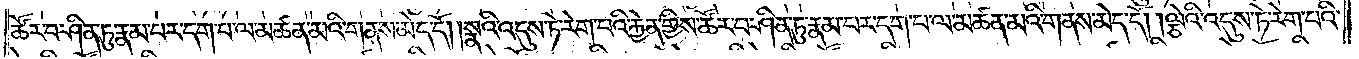ཚོར་བ་ཤིན་ཏུ་རྣམ་པར་དག་པ་ལ་མཚན་མའི་གནས་མེད་དོ། །སྣའི་འདུས་ཏེ་རེག་པའི་རྐྱེན་གྱིས་ཚོར་བ་ཤིན་ཏུ་རྣམ་པར་དག་པ་ལ་མཚན་མའི་གནས་མེད་དོ། །ལྕེའི་འདུས་ཏེ་རེག་པའི་
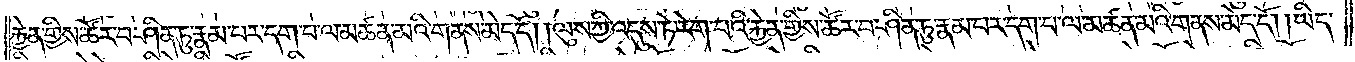རྐྱེན་གྱིས་ཚོར་བ་ཤིན་ཏུ་རྣམ་པར་དག་པ་ལ་མཚན་མའི་གནས་མེད་དོ། །ལུས་ཀྱི་འདུས་ཏེ་རེག་པའི་རྐྱེན་གྱིས་ཚོར་བ་ཤིན་ཏུ་རྣམ་པར་དག་པ་ལ་མཚན་མའི་གནས་མེད་དོ། །ཡིད་
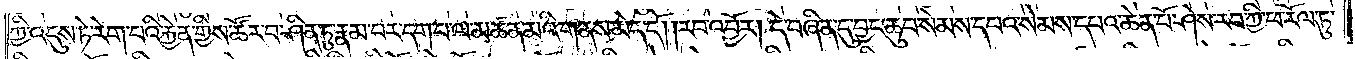ཀྱི་འདུས་ཏེ་རེག་པའི་རྐྱེན་གྱིས་ཚོར་བ་ཤིན་ཏུ་རྣམ་པར་དག་པ་ལ་མཚན་མའི་གནས་མེད་དོ། །རབ་འབྱོར། དེ་བཞིན་དུ་བྱང་ཆུབ་སེམས་དཔའ་སེམས་དཔའ་ཆེན་པོ་ཤེས་རབ་ཀྱི་ཕ་རོལ་ཏུ་
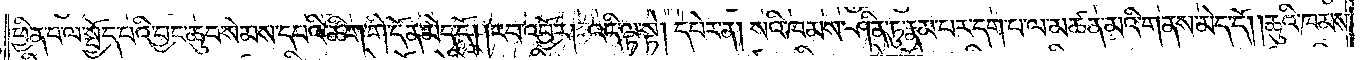ཕྱིན་པ་ལ་སྤྱོད་པའི་བྱང་ཆུབ་སེམས་དཔའི་ཚིག་གི་དོན་མེད་དོ། །རབ་འབྱོར། འདི་ལྟ་སྟེ། དཔེར་ན། སའི་ཁམས་ཤིན་ཏུ་རྣམ་པར་དག་པ་ལ་མཚན་མའི་གནས་མེད་དོ། །ཆུའི་ཁམས་
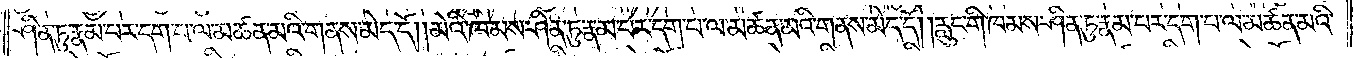ཤིན་ཏུ་རྣམ་པར་དག་པ་ལ་མཚན་མའི་གནས་མེད་དོ། །མེའི་ཁམས་ཤིན་ཏུ་རྣམ་པར་དག་པ་ལ་མཚན་མའི་གནས་མེད་དོ། །རླུང་གི་ཁམས་ཤིན་ཏུ་རྣམ་པར་དག་པ་ལ་མཚན་མའི་
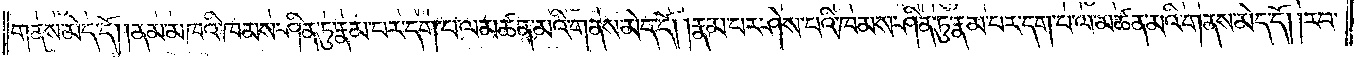གནས་མེད་དོ། །ནམ་མཁའི་ཁམས་ཤིན་ཏུ་རྣམ་པར་དག་པ་ལ་མཚན་མའི་གནས་མེད་དོ། །རྣམ་པར་ཤེས་པའི་ཁམས་ཤིན་ཏུ་རྣམ་པར་དག་པ་ལ་མཚན་མའི་གནས་མེད་དོ། །རབ་
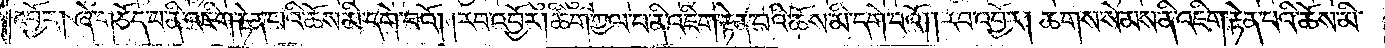འབྱོར། ཞེ་གཅོད་པ་ནི་འཇིག་རྟེན་པའི་ཆོས་མི་དགེ་བའོ། །རབ་འབྱོར། ཚིག་ཀྱལ་པ་ནི་འཇིག་རྟེན་པའི་ཆོས་མི་དགེ་པའོ། །རབ་འབྱོར། ཆགས་སེམས་ནི་འཇིག་རྟེན་པའི་ཆོས་མི་
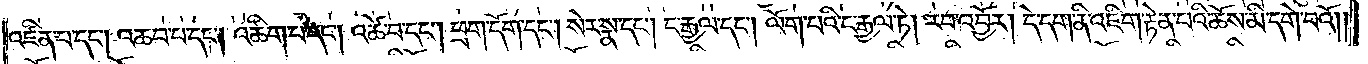འཛིན་པ་དང༌། འཆབ་པ་དང༌། འཚིག་པ་དང༌། འཚེ་བ་དང༌། ཕྲག་དོག་དང༌། སེར་སྣ་དང༌། ང་རྒྱལ་དང༌། ལོག་པའི་ང་རྒྱལ་ཏེ། རབ་འབྱོར། དེ་དག་ནི་འཇིག་རྟེན་པའི་ཆོས་མི་དགེ་བའོ། །
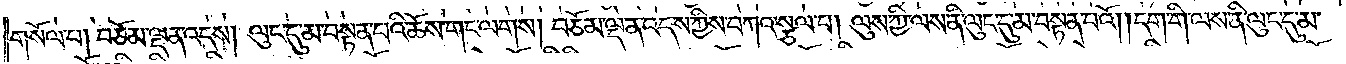གསོལ་པ། བཅོམ་ལྡན་འདས། ལུང་དུ་མ་བསྟན་པའི་ཆོས་གང་ལགས། བཅོམ་ལྡན་འདས་ཀྱིས་བཀའ་སྩལ་པ། ལུས་ཀྱི་ལས་ནི་ལུང་དུ་མ་བསྟན་པའོ། །ངག་གི་ལས་ནི་ལུང་དུ་མ་
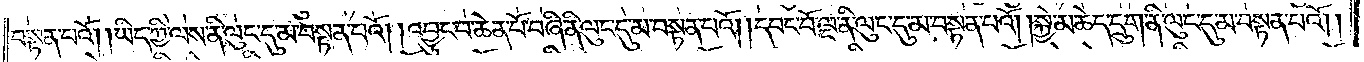བསྟན་པའོ། །ཡིད་ཀྱི་ལས་ནི་ལུང་དུ་མ་བསྟན་པའོ། །འབྱུང་བ་ཆེན་པོ་བཞི་ནི་ལུང་དུ་མ་བསྟན་པའོ། །དབང་པོ་ལྔ་ནི་ལུང་དུ་མ་བསྟན་པའོ། །སྐྱེ་མཆེད་དྲུག་ནི་ལུང་དུ་མ་བསྟན་པའོ། །
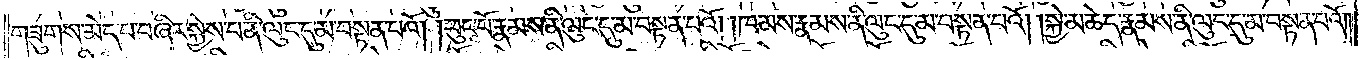གཟུགས་མེད་པ་བཞིར་སྐྱེས་པ་ནི་ལུང་དུ་མ་བསྟན་པའོ། །ཕུང་པོ་རྣམས་ནི་ལུང་དུ་མ་བསྟན་པའོ། །ཁམས་རྣམས་ནི་ལུང་དུ་མ་བསྟན་པའོ། །སྐྱེ་མཆེད་རྣམས་ནི་ལུང་དུ་མ་བསྟན་པའོ། །
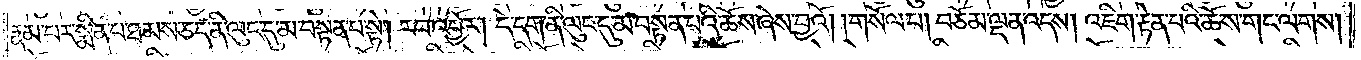རྣམ་པར་སྨིན་པ་ཐམས་ཅད་ནི་ལུང་དུ་མ་བསྟན་པ་སྟེ། རབ་འབྱོར། དེ་དག་ནི་ལུང་དུ་མ་བསྟན་པའི་ཆོས་ཞེས་བྱའོ། །གསོལ་པ། བཅོམ་ལྡན་འདས། འཇིག་རྟེན་པའི་ཆོས་གང་ལགས།
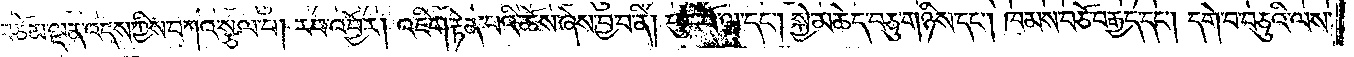བཅོམ་ལྡན་འདས་ཀྱིས་བཀའ་སྩལ་པ། རབ་འབྱོར། འཇིག་རྟེན་པའི་ཆོས་ཞེས་བྱ་བ་ནི། ཕུང་པོ་ལྔ་དང༌། སྐྱེ་མཆེད་བཅུ་གཉིས་དང༌། ཁམས་བཅོ་བརྒྱད་དང༌། དགེ་བ་བཅུའི་ལས་
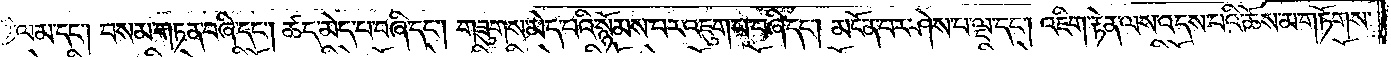ཀྱི་ལམ་དང༌། བསམ་གཏན་བཞི་དང༌། ཚད་མེད་པ་བཞི་དང༌། གཟུགས་མེད་པའི་སྙོམས་པར་འཇུག་པ་བཞི་དང༌། མངོན་པར་ཤེས་པ་ལྔ་དང༌། འཇིག་རྟེན་ལས་འདས་པའི་ཆོས་མ་གཏོགས་
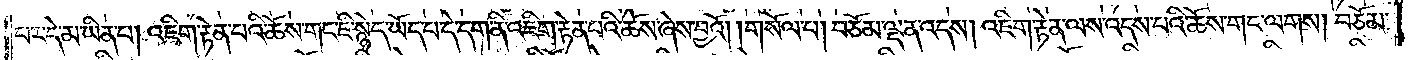པར་དེ་མ་ཡིན་པ། འཇིག་རྟེན་པའི་ཆོས་གང་ཇི་སྙེད་ཡོད་པ་དེ་དག་ནི་འཇིག་རྟེན་པའི་ཆོས་ཞེས་བྱའོ། །གསོལ་པ། བཅོམ་ལྡན་འདས། འཇིག་རྟེན་ལས་འདས་པའི་ཆོས་གང་ལགས། བཅོམ་
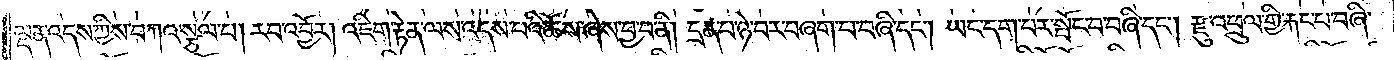ལྡན་འདས་ཀྱིས་བཀའ་སྩལ་པ། རབ་འབྱོར། འཇིག་རྟེན་ལས་འདས་པའི་ཆོས་ཞེས་བྱ་བ་ནི། དྲན་པ་ཉེ་བར་བཞག་པ་བཞི་དང༌། ཡང་དག་པར་སྤོང་པ་བཞི་དང༌། རྫུ་འཕྲུལ་གྱི་རྐང་པ་བཞི་
